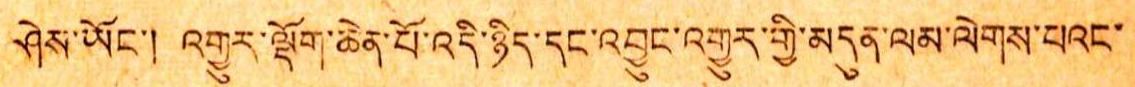ཤེས་ཡོང་། འགྱུར་ལྡོག་ཆེན་པོ་འདི་ཉིད་དང་འབྱུང་འགྱུར་གྱི་མདུན་ལམ་ལེགས་པའང་
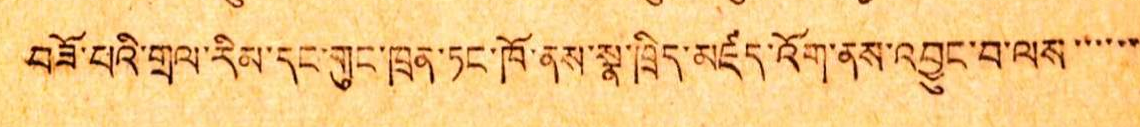བཟོ་པའི་གྲལ་རིམ་དང་གུང་ཁྲན་ཏང་ཁོ་ནས་སྣ་ཁྲིད་མཛད་འོག་ནས་འབྱུང་བ་ལས་་་་་་
